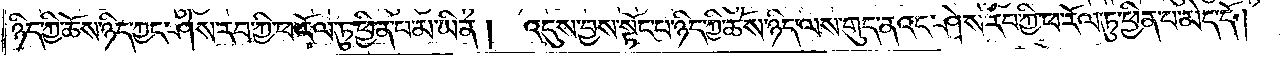ཉིད་ཀྱི་ཆོས་ཉིད་ཀྱང་ཤེས་རབ་ཀྱི་ཕ་རོལ་ཏུ་ཕྱིན་པ་མ་ཡིན། འདུས་བྱས་སྟོང་པ་ཉིད་ཀྱི་ཆོས་ཉིད་ལས་གུད་ནའང་ཤེས་རབ་ཀྱི་ཕ་རོལ་ཏུ་ཕྱིན་པ་མེད་དོ། །
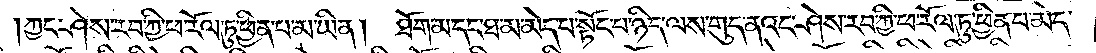ཀྱང་ཤེས་རབ་ཀྱི་ཕ་རོལ་ཏུ་ཕྱིན་པ་མ་ཡིན། ཐོག་མ་དང་ཐ་མ་མེད་པ་སྟོང་པ་ཉིད་ལས་གུད་ནའང་ཤེས་རབ་ཀྱི་ཕ་རོལ་ཏུ་ཕྱིན་པ་མེད་
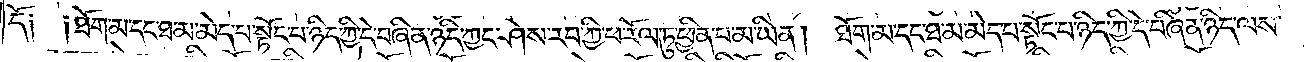དོ། །ཐོག་མ་དང་ཐ་མ་མེད་པ་སྟོང་པ་ཉིད་ཀྱི་དེ་བཞིན་ཉིད་ཀྱང་ཤེས་རབ་ཀྱི་ཕ་རོལ་ཏུ་ཕྱིན་པ་མ་ཡིན། ཐོག་མ་དང་ཐ་མ་མེད་པ་སྟོང་པ་ཉིད་ཀྱི་དེ་བཞིན་ཉིད་ལས་
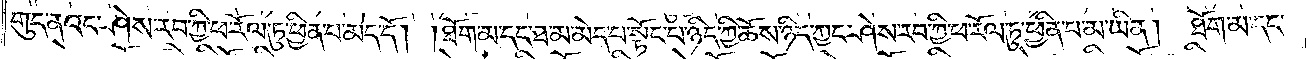གུད་ནའང་ཤེས་རབ་ཀྱི་ཕ་རོལ་ཏུ་ཕྱིན་པ་མེད་དོ། །ཐོག་མ་དང་ཐ་མ་མེད་པ་སྟོང་པ་ཉིད་ཀྱི་ཆོས་ཉིད་ཀྱང་ཤེས་རབ་ཀྱི་ཕ་རོལ་ཏུ་ཕྱིན་པ་མ་ཡིན། ཐོག་མ་དང་
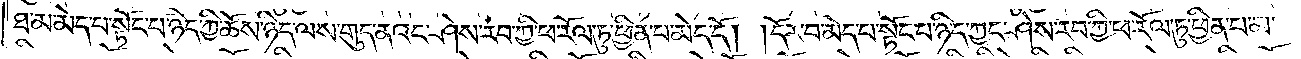ཐ་མ་མེད་པ་སྟོང་པ་ཉིད་ཀྱི་ཆོས་ཉིད་ལས་གུད་ནའང་ཤེས་རབ་ཀྱི་ཕ་རོལ་ཏུ་ཕྱིན་པ་མེད་དོ། །དོར་བ་མེད་པ་སྟོང་པ་ཉིད་ཀྱང་ཤེས་རབ་ཀྱི་ཕ་རོལ་ཏུ་ཕྱིན་པ་མ་
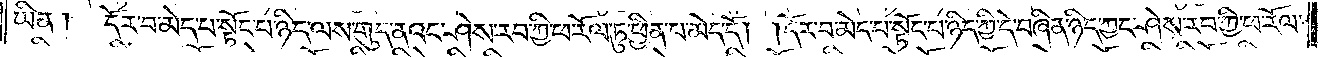ཡིན། དོར་བ་མེད་པ་སྟོང་པ་ཉིད་ལས་གུད་ནའང་ཤེས་རབ་ཀྱི་ཕ་རོལ་ཏུ་ཕྱིན་པ་མེད་དོ། །དོར་བ་མེད་པ་སྟོང་པ་ཉིད་ཀྱི་དེ་བཞིན་ཉིད་ཀྱང་ཤེས་རབ་ཀྱི་ཕ་རོལ་
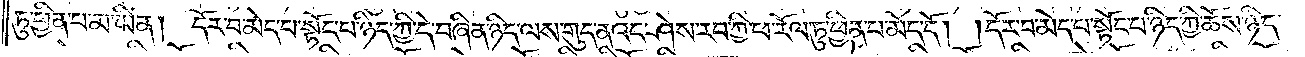ཏུ་ཕྱིན་པ་མ་ཡིན། དོར་བ་མེད་པ་སྟོང་པ་ཉིད་ཀྱི་དེ་བཞིན་ཉིད་ལས་གུད་ནའང་ཤེས་རབ་ཀྱི་ཕ་རོལ་ཏུ་ཕྱིན་པ་མེད་དོ། །དོར་བ་མེད་པ་སྟོང་པ་ཉིད་ཀྱི་ཆོས་ཉིད་
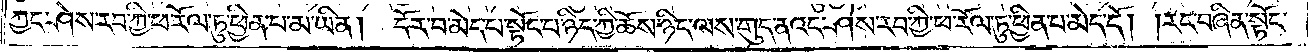ཀྱང་ཤེས་རབ་ཀྱི་ཕ་རོལ་ཏུ་ཕྱིན་པ་མ་ཡིན། དོར་བ་མེད་པ་སྟོང་པ་ཉིད་ཀྱི་ཆོས་ཉིད་ལས་གུད་ནའང་ཤེས་རབ་ཀྱི་ཕ་རོལ་ཏུ་ཕྱིན་པ་མེད་དོ། །རང་བཞིན་སྟོང་
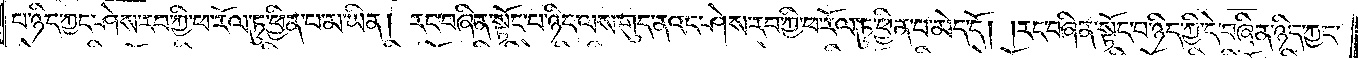པ་ཉིད་ཀྱང་ཤེས་རབ་ཀྱི་ཕ་རོལ་ཏུ་ཕྱིན་པ་མ་ཡིན། རང་བཞིན་སྟོང་པ་ཉིད་ལས་གུད་ནའང་ཤེས་རབ་ཀྱི་ཕ་རོལ་ཏུ་ཕྱིན་པ་མེད་དོ། །རང་བཞིན་སྟོང་པ་ཉིད་ཀྱི་དེ་བཞིན་ཉིད་ཀྱང་
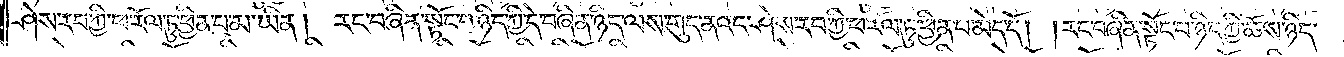ཤེས་རབ་ཀྱི་ཕ་རོལ་ཏུ་ཕྱིན་པ་མ་ཡིན། རང་བཞིན་སྟོང་པ་ཉིད་ཀྱི་དེ་བཞིན་ཉིད་ལས་གུད་ནའང་ཤེས་རབ་ཀྱི་ཕ་རོལ་ཏུ་ཕྱིན་པ་མེད་དོ། །རང་བཞིན་སྟོང་པ་ཉིད་ཀྱི་ཆོས་ཉིད་
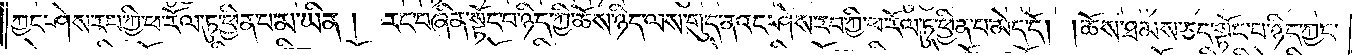ཀྱང་ཤེས་རབ་ཀྱི་ཕ་རོལ་ཏུ་ཕྱིན་པ་མ་ཡིན། རང་བཞིན་སྟོང་པ་ཉིད་ཀྱི་ཆོས་ཉིད་ལས་གུད་ནའང་ཤེས་རབ་ཀྱི་ཕ་རོལ་ཏུ་ཕྱིན་པ་མེད་དོ། །ཆོས་ཐམས་ཅད་སྟོང་པ་ཉིད་ཀྱང་
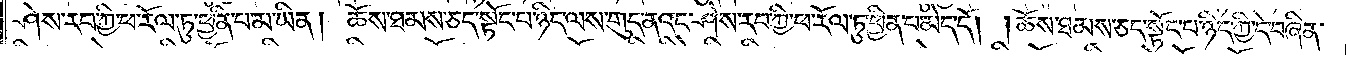ཤེས་རབ་ཀྱི་ཕ་རོལ་ཏུ་ཕྱིན་པ་མ་ཡིན། ཆོས་ཐམས་ཅད་སྟོང་པ་ཉིད་ལས་གུད་ནའང་ཤེས་རབ་ཀྱི་ཕ་རོལ་ཏུ་ཕྱིན་པ་མེད་དོ། །ཆོས་ཐམས་ཅད་སྟོང་པ་ཉིད་ཀྱི་དེ་བཞིན་
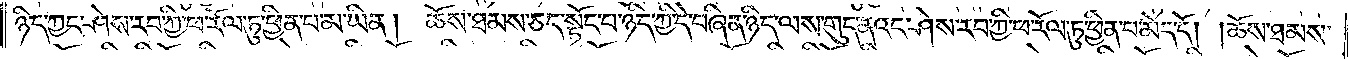ཉིད་ཀྱང་ཤེས་རབ་ཀྱི་ཕ་རོལ་ཏུ་ཕྱིན་པ་མ་ཡིན། ཆོས་ཐམས་ཅད་སྟོང་པ་ཉིད་ཀྱི་དེ་བཞིན་ཉིད་ལས་གུད་ནའང་ཤེས་རབ་ཀྱི་ཕ་རོལ་ཏུ་ཕྱིན་པ་མེད་དོ། །ཆོས་ཐམས་
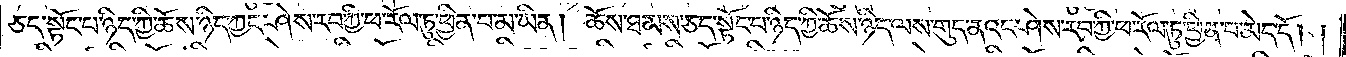ཅད་སྟོང་པ་ཉིད་ཀྱི་ཆོས་ཉིད་ཀྱང་ཤེས་རབ་ཀྱི་ཕ་རོལ་ཏུ་ཕྱིན་པ་མ་ཡིན། ཆོས་ཐམས་ཅད་སྟོང་པ་ཉིད་ཀྱི་ཆོས་ཉིད་ལས་གུད་ནའང་ཤེས་རབ་ཀྱི་ཕ་རོལ་ཏུ་ཕྱིན་པ་མེད་དོ། །
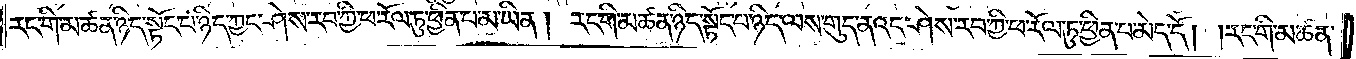རང་གི་མཚན་ཉིད་སྟོང་པ་ཉིད་ཀྱང་ཤེས་རབ་ཀྱི་ཕ་རོལ་ཏུ་ཕྱིན་པ་མ་ཡིན། རང་གི་མཚན་ཉིད་སྟོང་པ་ཉིད་ལས་གུད་ནའང་ཤེས་རབ་ཀྱི་ཕ་རོལ་ཏུ་ཕྱིན་པ་མེད་དོ། །རང་གི་མཚན་
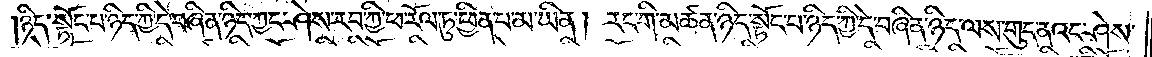ཉིད་སྟོང་པ་ཉིད་ཀྱི་དེ་བཞིན་ཉིད་ཀྱང་ཤེས་རབ་ཀྱི་ཕ་རོལ་ཏུ་ཕྱིན་པ་མ་ཡིན། རང་གི་མཚན་ཉིད་སྟོང་པ་ཉིད་ཀྱི་དེ་བཞིན་ཉིད་ལས་གུད་ནའང་ཤེས་
